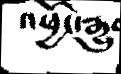འཕྱོ་རྒྱུ
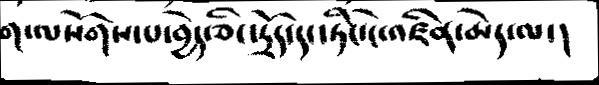ག་ལསོགས་པ་བྱེད་ཅིང་དྲོད་དང་ཏིང་ངེ་འཛིན་མེད་ལ་།
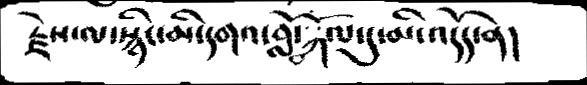རྗེས་ལ་སྙིང་མི་དགའ་བློ་བཀོལ་དུ་མི་འདོད་ན།
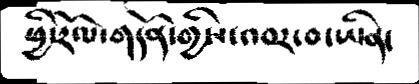ཕྱི་རོལ་གདོན་གྱིས་འབར་བ་ཡིན་
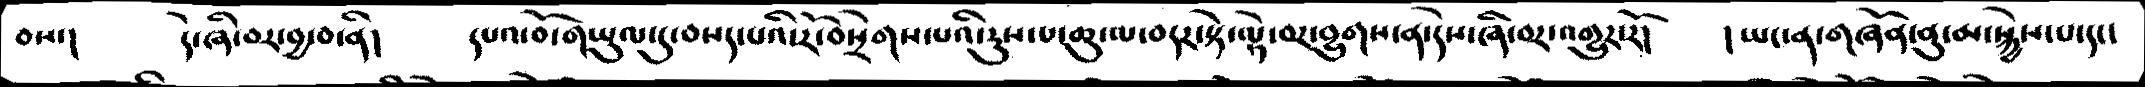བས།    དེ་ཞི་བར་བྱ་བ་ནི།    དཔའ་བོ་གཡུལ་དུ་བསད་པའི་རོ་བསྲེགས་པའི་རུས་པ་ཆུ་ལ་བདར་སྟེ་ལྟེ་བར་བྱུགས་ན་དེས་ཞི་བར་འགྱུར་རོ།   །ཡང་ན་གཞོན་ནུ་མ་སྐྱེས་པ་དང་།
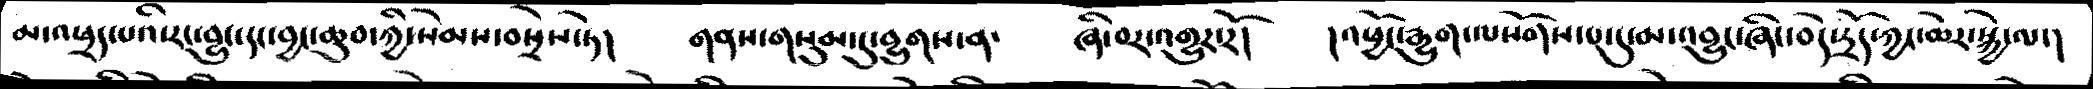མ་འཕྲད་པའི་རང་བྱུང་དང་བྱང་ཆུབ་ཀྱི་སེམས་བསྲེས་ཏེ།    གནས་གསུམ་དུ་བྱུགས་ན་   ཞི་བར་འགྱུར་རོ།    །འཕྱོང་རྒྱུག་ལསོགས་པ་དུ་མ་འབྱུང་ཞིང་བདེ་དྲོད་ཀྱང་ཆེར་སྐྱེ་ལ་།
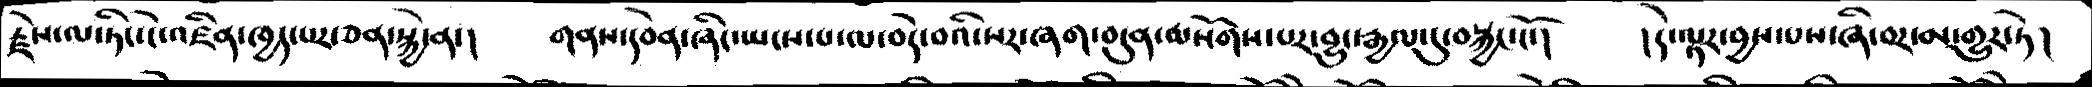རྗེས་ལ་ཏིང་ངེ་འཛིན་ཁྱད་པར་ཅན་སྐྱེ་ན་།    གནས་དབེན་ཞིང་ཡངས་པ་ལ་བདེ་བའི་སར་ཞག་བདུན་ལསོགས་པར་བྱུང་རྒྱལ་དུ་བསྐྱང་ངོ་།     །དེ་ལྟར་བྱས་པས་ཞི་བར་མ་གྱུར་ཏེ།
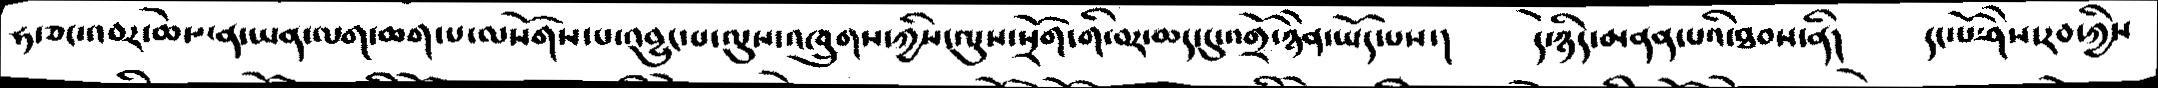ཧ་ཅང་འབར་ཆེས་ན་ཡན་ལག་ཆག་པ་ལསོགས་པ་འབྱུང་པ་ལུས་འཁྲུགས་ཀྱིས་ལུས་སྲོག་གི་བར་ཆད་དུ་འགྲོ་ཉེན་ཡོད་པས་།    དེ་ཉིད་མནན་པའི་ཐབས་ནི།   དང་པོ་ཤེས་རབ་ཀྱིས་
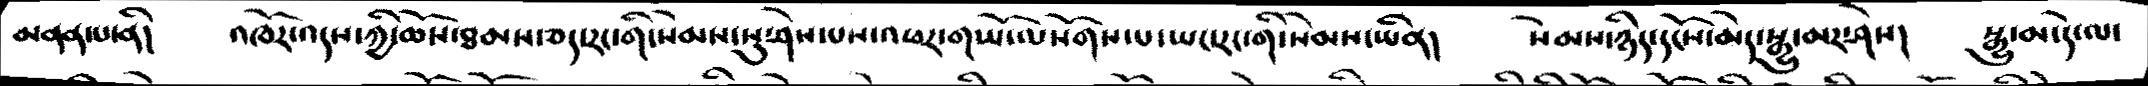མནན་པ་ནི།   འཁོར་འདས་ཀྱི་ཆོས་ཐམས་ཅད་རང་གི་སེམས་སུ་ཤེས་པས་འཕར་གཡོ་ལསོགས་པ་ཡང་རང་གི་སེམས་ཡིན།   སེམས་ཉིད་དངོས་མེད་སྒྱུ་མར་ཤེས།   སྒྱུ་མ་དེ་ལ་
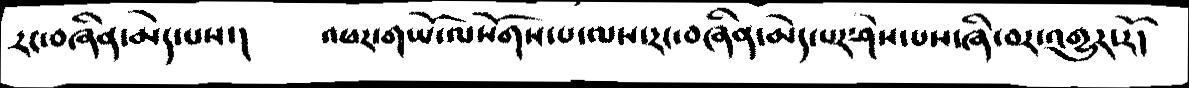རང་བཞིན་མེད་པས་།   འཕར་གཡོ་ལསོགས་པ་ལས་རང་བཞིན་མེད་པར་ཤེས་པས་ཞི་བར་འགྱུར་རོ།
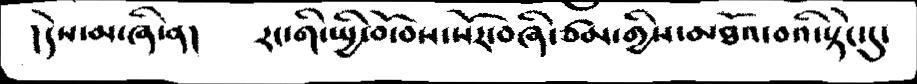།དེས་མ་ཞི་ན།   རང་གི་སྤྱི་བོ་བས་སོར་བཞི་ཙམ་གྱིས་མཐོའ་བའི་སྟེང་དུ་
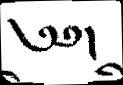༄༅།
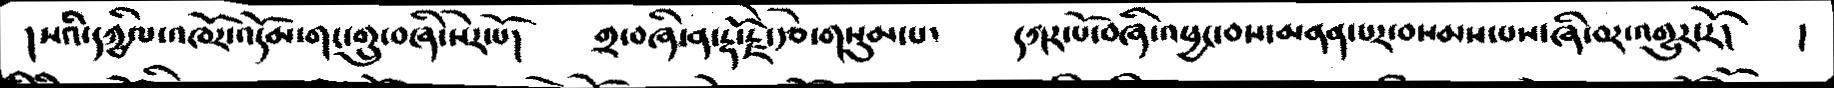།སའི་དཀྱིལ་འཁོར་འདོམ་གང་གྲུ་བཞི་སེར་པོ།   གྲ་བཞི་ན་རྡོ་རྗེ་རྩེ་གསུམ་པ་   དཀར་པོ་བཞི་འཕྱང་བས་མནན་པར་བསམས་པས་ཞི་བར་འགྱུར་རོ།   །
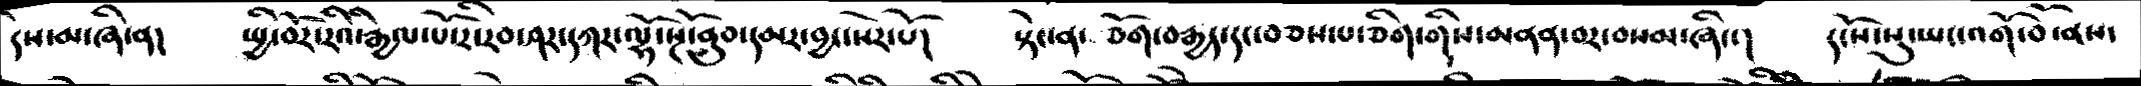དེས་མ་ཞི་ན།    སྤྱི་བོར་རིའི་རྒྱལ་པོ་རི་རབ་ཤར་དཀར་ལྷོ་སྔོ་ནུབ་དམར་བྱང་སེར་པོ།    སྟེང་ན་ཅོག་བརྒྱད་དང་བཅས་པ་ཅིག་གིས་མནན་བར་བསམ་ཞིང་།   དངོས་སུ་ཡང་འགོ་བོ་ནས་
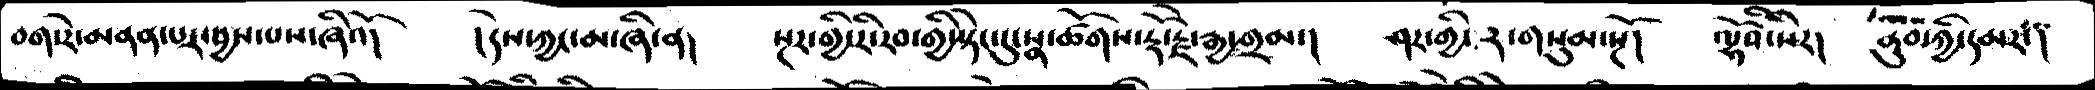བག་རེ་མནན་པར་བྱས་པས་ཞིའོ།   །དེས་ཀྱང་མ་ཞི་ན།   སྔར་གྱི་རི་རབ་གྱི་སྟེང་དུ་སྣ་ཚོགས་རྡོ་རྗེ་རྒྱ་གྲམ་།   ཤར་གྱི་ར་གསུམ་སྔོ།   ལྷོའི་སེར།   ནུབ་ཀྱི་དམར་༑
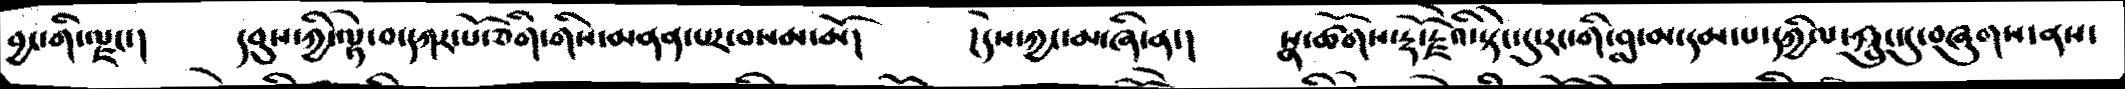བྱང་གི་ལྗང་།   དབུས་ཀྱི་ལྟེ་བ་དཀར་པོ་ཅིག་གིས་མནན་པར་བསམ་མོ།   །དེས་ཀྱང་མ་ཞི་ན་།   སྣ་ཚོགས་རྡོ་རྗེའི་སྟེང་དུ་རང་གི་བླ་མ་དམ་པ་དཀྱིལ་ཀྲུང་དུ་བཞུགས་ནས་
